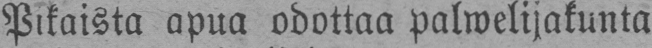Pikaista apua odottaa palwelijakunta
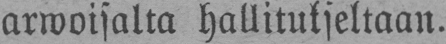arwoisalta hallitukseltaan.
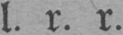l. r. r.
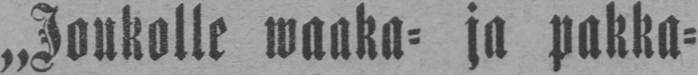˶Joukolle waaka- ja pakka-
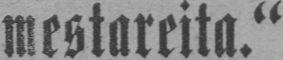mestareita."
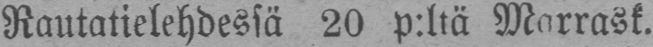Rautatielehdessä 20 p:ltä Marrask.
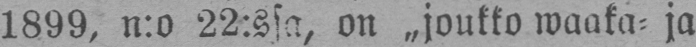1899, n:o 22:ssa, on ˶joukko waaka- ja
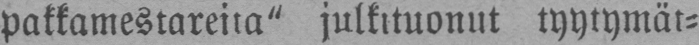pakkamestareita" julkituonut tyytymät-
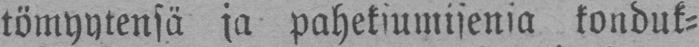tömyytensä ja paheksumisensa konduk-
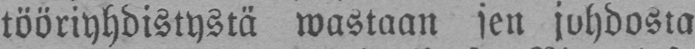tööriyhdistystä wastaan sen johdosta
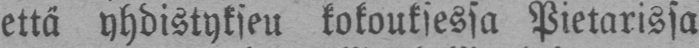että yhdistyksen kokouksessa Pietarissa
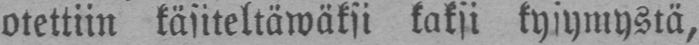oiettiin käsiteltäwäksi kaksi kysymystä,
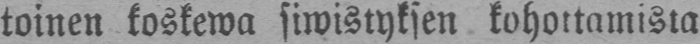toinen koskewa siwistyksen kohottamista
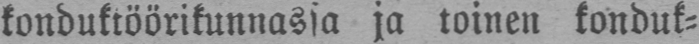konduktöörikunnassa ja toinen konduk-
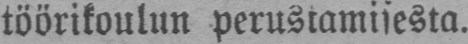töörikoulun perustamisesta.
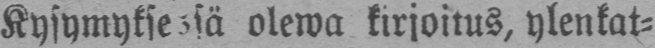Kysymyksensä olewa kirjoitus, ylenkat-
